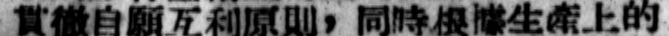貫徹自願互利原則，同時根據生產上的
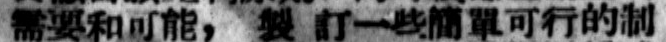需要和可能， 製 訂一些簡單可行的制
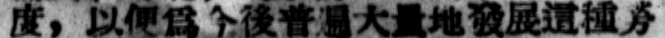度，以便爲今後普遍大量地發展這種勞
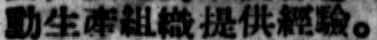動生產組織提供經驗。
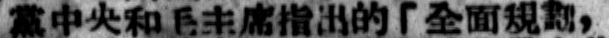黨中央和毛主席指出的「全面規劃，
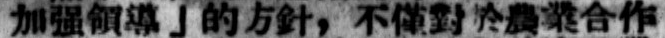加強領導」的方針，不僅對於農業合作
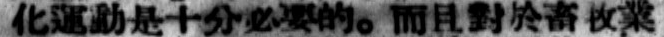化運動是十分必要的。而且對於畜牧業
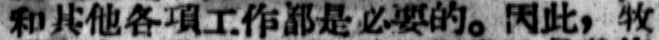和其他各項工作都是必要的。因此，牧
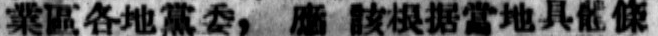業區各地黨委， 應 該根據當地具體條
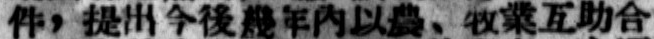件，提出今後幾年內以農、牧業互助合
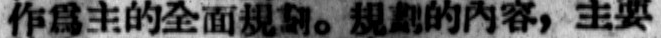作爲主的全面規劃。規劃的內容，注主要
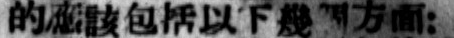的應該包括一下幾個方面：
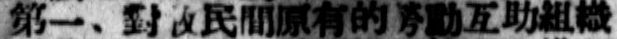第一、對牧民間原有的勞動互助組織
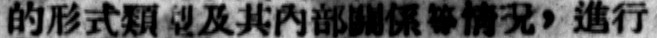的形式類型及其內部關係等情況，進行
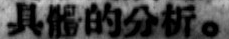具體的分析。
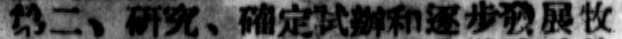第二、研究、確定試辦和逐步發展牧
